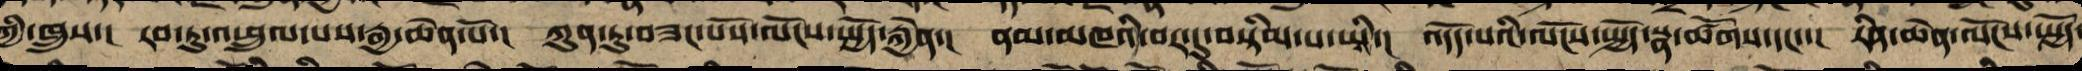ཀྱི་ཁྲུས་། རབ་ཏུ་འཕྲུལ་པས་རྒྱ་ཆེན་པོ་། ཀུན་ཏུ་བཟང་པོའི་ལོངས་སྤྱོད་རྐྱེན་། ནམ་མཁའི་བར་དུ་གཏིམ་པ་ཡི་། འདོད་པའི་ལོངས་སྤྱོད་སྣ་ཚོགས་དང་་། རིན་ཆེན་ལོངས་སྤྱོད་
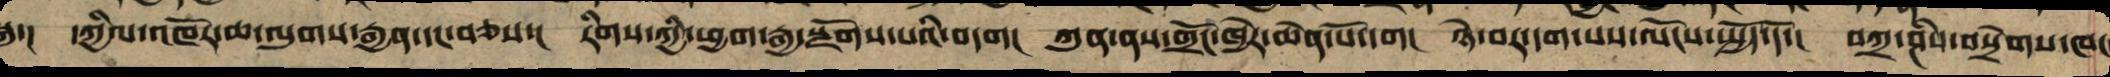སྐུ་། དཀྱིལ་འཁོར་ཆ་ལུགས་རྒྱན་དང་བཅས་། རིགས་ཀྱི་ཕྱག་རྒྱ་སྫོགས་པའི་བདག། ཀུན་ནས་གྲོང་ཁྱེར་ཆེན་པོ་དག། ཉེ་བར་དག་པའི་ལོངས་སྤྱོད་དེ་། བཀྲ་ཤིས་བསྲེགས་ཁང
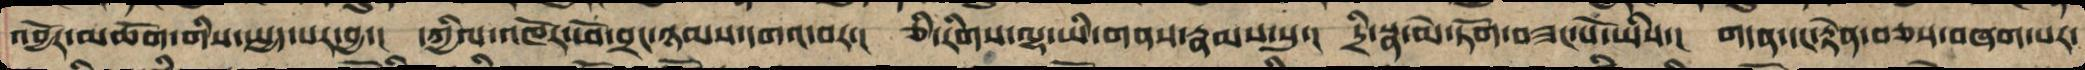འབྱོར་མཆོག་གིས་སྤྱད་པར་བྱ་། དཀྱིལ་འཁོར་ཕོ་བྲང་ཉམས་དགའ་བར་། ཅི་རིགས་ལྷ་ཡི་གནས་རྣམས་སུ་། དྲི་སྣ་མེ་ཏོག་བཟང་པོ་ཡིས་། གདན་དང་རྟེན་བཅས་བཞག་པར་
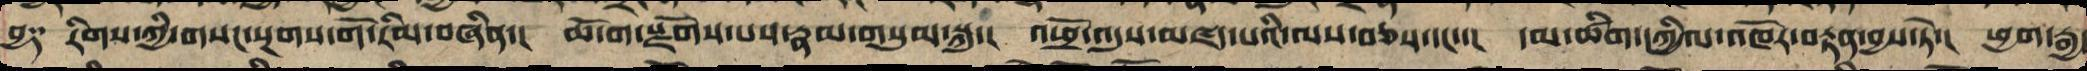བྱ༑ རིགས་ཀྱི་གསང་སྔགས་གོ་རིམ་བཞིན་། ཆོ་ག་སྫོགས་པས་རྣམ་གསུམ་སྐུ་། འཕྲོ་འདུས་མཛད་པའི་ལས་བཅས་དང་་། དམ་ཚིག་དཀྱིལ་འཁོར་བརྟན་བྱས་ཏེ་། ཕྱག་རྒྱ་
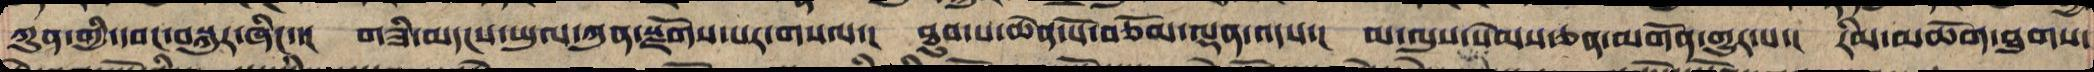ཀུན་གྱིས་དབང་བསྐུར་ཞིང་་། གཟི་མདངས་ཡུལ་ཀུན་སྫོགས་པར་གསལ་། ཐུབ་པ་ཆེན་པོ་བཅོམ་ལྡན་འདས་། མ་ལུས་སེམས་ཅན་མགོན་གྱུར་པ་། རིམ་མཆོག་ཐུགས་
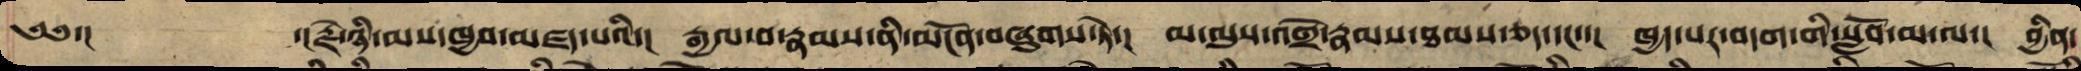༄༅་། ་།རྗེ་ཉི་མས་ཁྱབ་མཛད་པའི་། རྒྱལ་བ་རྣམས་ནི་མངོན་བཞུགས་ཏེ་། མ་ལུས་འགྲོ་རྣམས་ཐམས་ཅད་དང་་། ཁྱད་པར་བདག་གི་སློབ་མ་ལ་། བྱིན་
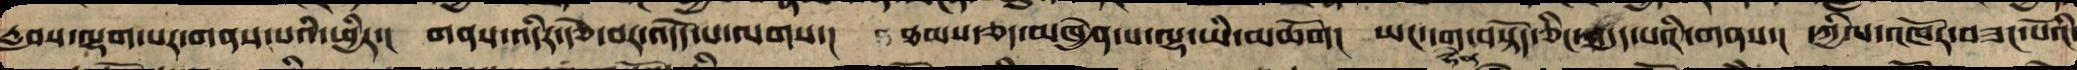རླབས་ལྷག་པར་གནས་པའི་ཕྱིར་། གནས་འདིར་རྩེ་བར་འདོད་བ་ལགས་། ཐམས་ཅད་མཁྱེན་པ་ལྷ་ཡི་མཆོག། ཡང་དག་བསྟོད་ཅིང་འདུད་པའི་གནས་། དཀྱིལ་འཁོར་བཟང་པོའི
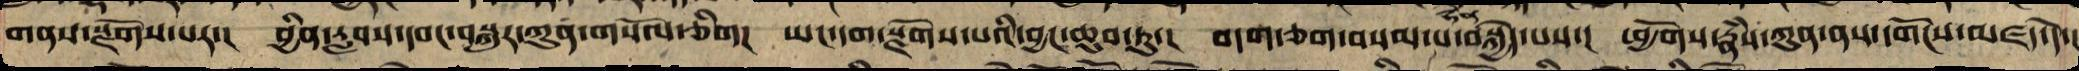གནས་སྫོགས་པར་། བྱིན་རླབས་དབང་བསྐུར་ཀུན་སྩོལ་ཅིག། ཡང་དག་སྫོགས་པའི་བྱང་ཆུབ་ཏུ་། བདག་ཅག་བསམ་པ་ལྷན་བསྐྱེད་པས་། ཕྱོགས་རྣཾས་ཀུན་ནས་དགོངས་མཛད་དེ་།
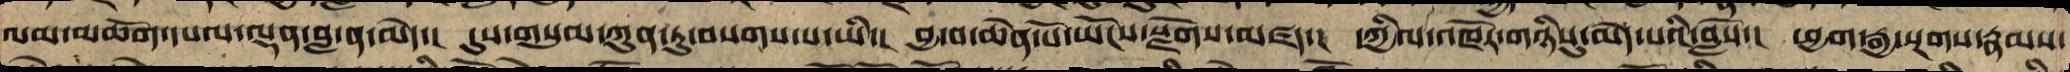ལམ་མཆོག་དཔལ་ལྡན་བླ་ན་མེད་། དུས་གསུམ་ཀུན་ཏུ་བསགས་པ་ཡི་། བྱ་བ་ཆེན་པོ་ཡོངས་སྫོགས་མཛོད་། དཀྱིལ་འཁོར་གཉིསུ་མེད་པའི་བློས་། ཕྱག་རྒྱ་སྔགས་རྣམས་
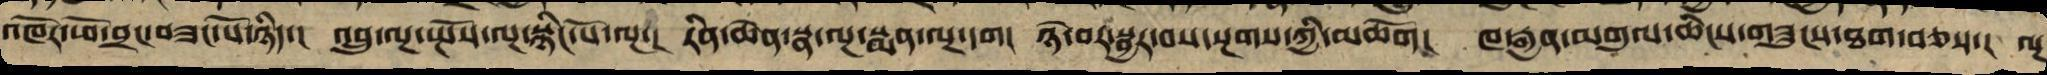འཁོར་ཕོ་བྲང་བཟང་པོ་ཉིད་། འབྲུ་ལྔ་སྤོས་ལྔ་སྙིང་པོ་ལྔ་། རིན་ཆེན་སྣ་ལྔ་སྨན་ལྔ་དག། ཉེ་བར་སྦྱང་བའི་སྫས་ཀྱི་མཆོག། ཁ་རྒྱན་མགུལ་ཆིངས་གཟུང་ཐག་བཅས་། ལྔ
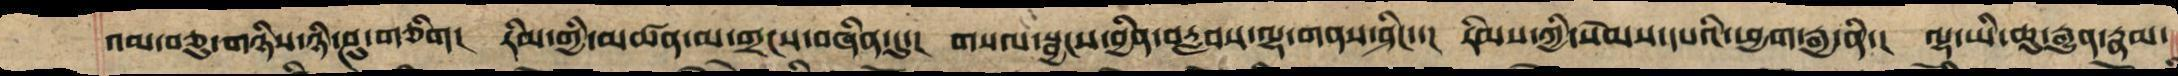འམ་བཅུ་གཉིས་ཉི་ཤུ་གཅིག། རིམ་གྱིས་མཚན་མ་གྲངས་བཞིན་དུ་། གསལ་སྦྱངས་བྱིན་བརླབས་ལྷ་གནས་ཤིང་་། རིམས་ཀྱི་སེམས་དཔའི་ཕྱག་རྒྱ་ནི་། ལྷ་ཡི་ཆུ་རྒྱུན་རྣམ་
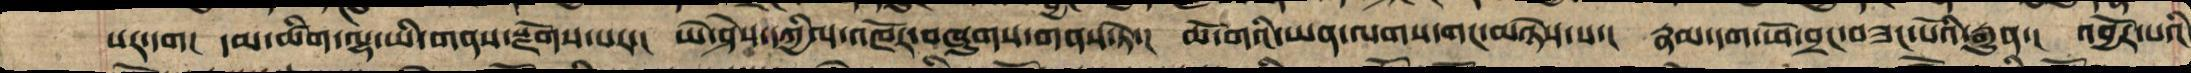པར་དག། དམ་ཚིག་ལྷ་ཡི་གནས་སྫོགས་པར་། ཡེ་ཤེས་དཀྱིལ་འཁོར་བཞུགས་གནས་ཏེ་། ཆོ་གའི་ཡན་ལག་ཀུན་མཉེས་པ་། རྣམ་དག་ཕོ་བྲང་བཟང་པོའི་རྒྱུན་། འབྱོར་པའི
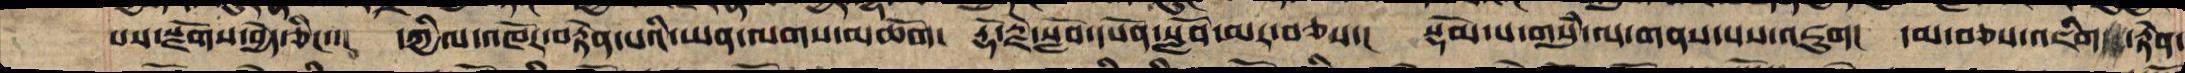པས་སྫོགས་བྱེད་ཅིང་་། དཀྱིལ་འཁོར་བརྟེན་པའི་ཡན་ལག་མཆོག། རྡོ་རྗེ་སློབ་དཔོན་སློབ་མར་བཅས་། སྡོམ་པ་གསུཾ་ལ་གནས་པས་འཇུག། དམ་བཅས་འཇིག་རྟེན་
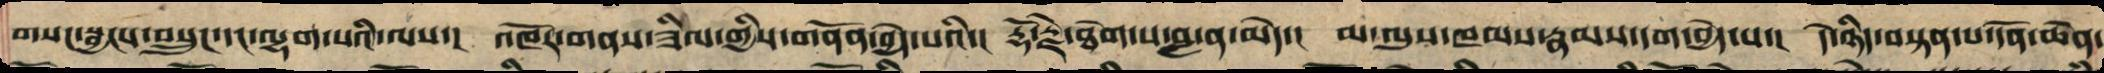གསང་སྦྱངས་བསྲུང་དང་ལྷག་པའི་ལས་། འཁོར་གནས་ཟིལ་གྱིས་གནོན་བྱེད་པའི་། རྡོ་རྗེ་ཐེག་པ་བླ་ན་མེད་། མ་ལུས་ཁམས་རྣམས་དག་བྱེད་པ་། དེ་ཉིད་བསྟན་པ་དོན་ཆེན་
